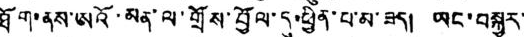ཐོག་ནས་ཨའོ་མན་ལ་གྲོས་བྱོལ་དུ་ཕྱིན་པ་མ་ཟད། ཡང་བསྐྱར་
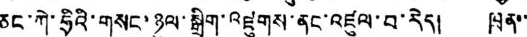ཅང་ཀེ་ཧྲིའི་གསང་ཉུལ་སྒྲིག་འཛུགས་ནང་འཛུལ་བ་རེད། ཁྲན་་
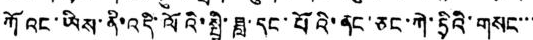ཀོའང་ཡིས་ནི་འདི་ལོའི་སྤྱི་ཟླ་དང་པོའི་ནང་ཅང་ཀེ་ཧྲིའི་གསང་་་
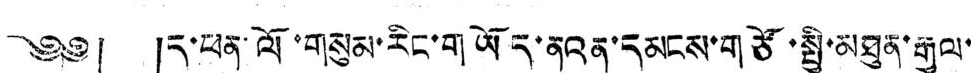༄༅། །ད་ཕན་ལོ་གསུམ་རིང་གཡོད་ནའན་དམངས་གཙོ་སྤྱི་མཐུན་རྒྱལ་
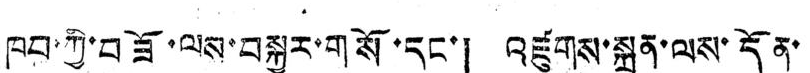ཁབ་ཀྱི་བཟོ་ལས་བསྐྱར་གསོ་དང་། འཛུགས་སྐྲུན་ལས་དོན་
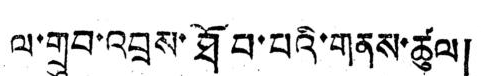ལ་གྲུབ་འབྲས་ཐོབ་པའི་གནས་ཚུལ།
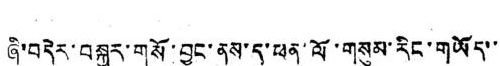ཞི་བདེར་བསྐྱར་གསོ་བྱུང་ནས་ད་ཕན་ལོ་གསུམ་རིང་གཡོད་་
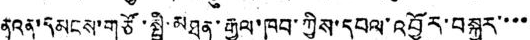ནའན་དམངས་གཙོ་སྤྱི་མཐུན་རྒྱལ་ཁབ་ཀྱིས་དབལ་འབྱོར་བསྐྱར་་་་
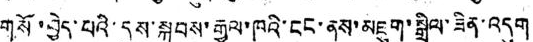གསོ་བྱེད་པའི་དུས་སྐབས་རྒྱལ་ཁའི་ངང་ནས་མཇུག་སྒྲིལ་ཟིན་འདུག
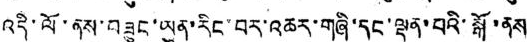འདི་ལོ་ནས་བཟུང་ཡུན་རིང་བར་འཆར་གཞི་དང་ལྡན་པའི་སྒོ་ནས་
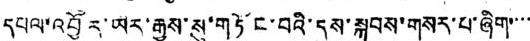དཔལ་འབྱོར་ཡར་རྒྱས་སུ་གཏོང་བའི་དུས་སྐབས་གསར་པ་ཞིག་་་་
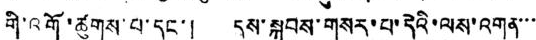གི་འགོ་ཚུགས་པ་དང་། དུས་སྐབས་གསར་པ་དེའི་ལས་འགན་་་
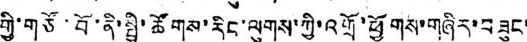གྱི་གཙོ་བོ་ནི་སྤྱི་ཚོགས་རིང་ལུགས་ཀྱི་འགྲོ་ཕྱོགས་གཞིར་བཟུང་
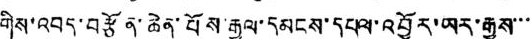གིས་འབད་བརྩོན་ཆེན་པོས་རྒྱལ་དམངས་དཔལ་འབྱོར་ཡར་རྒྱས་་་
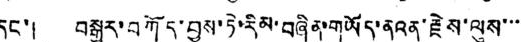དང་། བསྒྱུར་བཀོད་བྱས་ཏེ་རིམ་བཞིན་གཡོད་ནའན་རྗེས་ལུས་་་་
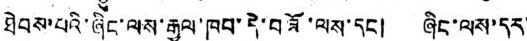ཐེབས་པའི་ཞིང་ལས་རྒྱལ་ཁབ་དེ་བཟོ་ལས་དང། ཞིང་ལས་དར་
